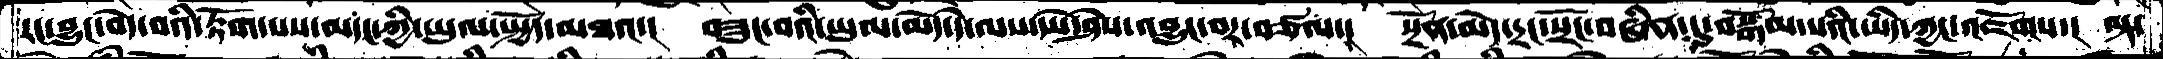རང་བྱུང་བདེ་བའི་རྟོག་པས་མདང་ཀྱི་ཡུལ་སྤྱོད་མཐའ་།  བཟུང་བའི་ཡུལ་མེད་དེ་ལས་ཡེ་ཤེས་འབྱུང་བར་བཙལ་།  སྔོན་མེད་དྲང་སྲོང་བཞིན་དུ་བསྒོམ་པའི་ཡིད་ཀྱང་འཇོགས་།  ལྟ་
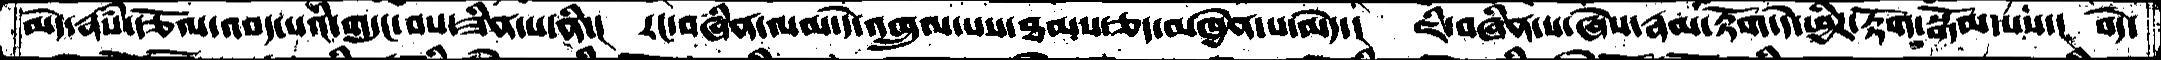མེད་རྣཾས་རྩོལ་འབད་པའི་གདུང་བས་ཟིན་པ་ནི་།  རང་བཞིན་ལམ་དེ་འཁྲུལ་པས་ཐམས་ཅད་མཁྱེན་པ་མེད་།  ཇི་བཞིན་ས་ཞེས་རྣམ་རྟོག་དེ་ཕྱིར་རྟོག་སྒོམ་པས་།   བདེ་
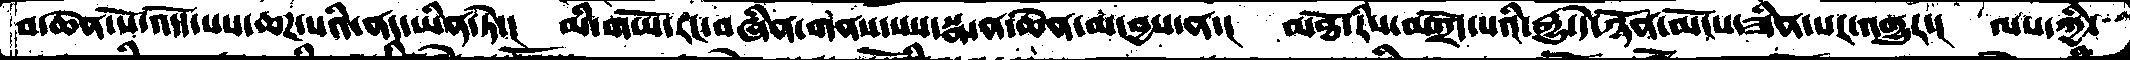བ་ཆེན་པོ་འདོད་པས་ཆཌ་པའི་ནད་ཡིན་ཏེ་།  མི་གཡོ་རང་བཞིན་གནས་པས་སྨན་ཆེན་མ་བྱས་ན་།  མཐོ་རིས་བགྲོད་པའི་རྒྱུ་དེ་ཉོན་མོངས་ཟིན་པར་འགྱུར་།  ལས་ཀྱི་
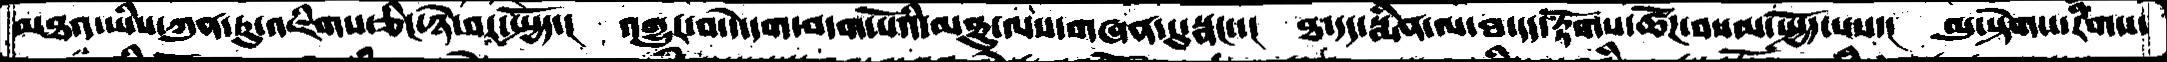མཐའ་ཡིས་ཀུན་ཏུ་འཇིགས་ཅིང་ཉེ་བར་སྤྱོད་།  འགྱུར་བ་དེ་དག་བདག་པོའི་མཐུ་ལས་གཞན་དུ་སྣང་་།  ཐ་དད་སྨིན་ལ་ཐ་དད་རྟོགས་ཚོཌ་བསམ་སྤྱོད་པས་།  མུ་སྟེགས་རིགས་
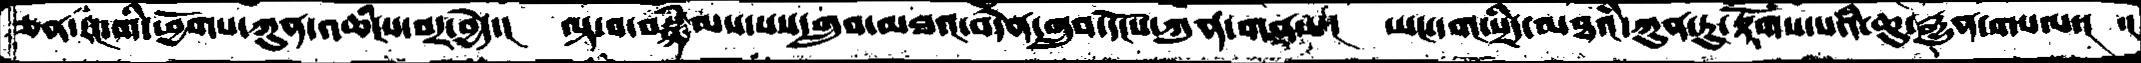ཅན་རང་གི་ཕྱོགས་ཀུན་འཆིངས་བར་བྱེད་།   ལྟ་བ་བསྙིམས་པས་གྲུབ་མཐའ་བདེན་གྲུབ་དངོས་ཀུན་གནས་།   ཡང་དག་སྲིད་མཐའི་ཀུན་ཏུ་རྟོགས་པའི་ཆུ་རྒྱུན་གསལ་།  ་།
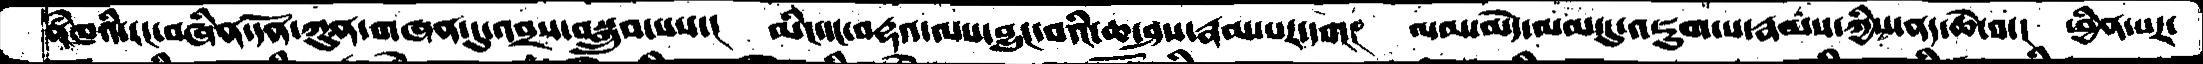ནཾཁའི་རང་བཞིན་དོན་ཀུན་གཞན་དུ་འབྲས་བསྒྲུབ་པས་།  མིང་དང་བརྡའ་ལས་བྱུང་བའི་ཆ་ཤས་རྣམ་པར་དག།  ལམ་མེད་ལམ་དུ་འཇུག་པ་རྣམས་ཀྱིས་ནད་ཆེ་བ་།  ཕྱིན་པར་
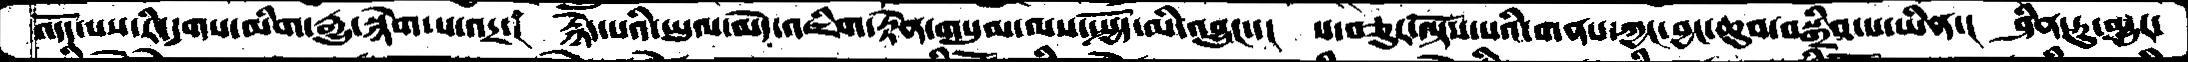འདོད་པས་རི་དྭགས་མིག་རྒྱུ་སྙེག་པ་འདྲ་།  རྙེད་པའི་ཡུལ་མེད་འཇིག་རྟེན་གསུམ་ལས་སྤྱོད་མི་འབྱུང་་།  ས་བཅུར་ལྟོས་པའི་གནས་ཀྱང་བྱང་ཆུབ་བསྒྲིབ་པ་ཡིན་།  ཤིན་ཏུ་མྱུར་
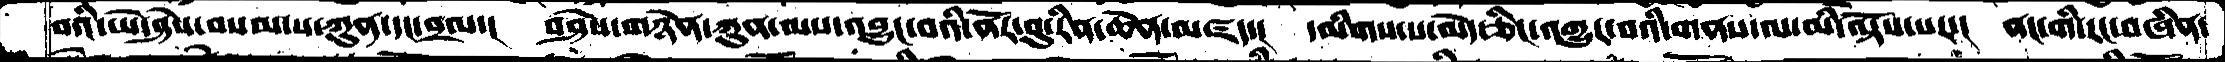བའི་ཡེ་ཤེས་བསམ་པ་ཀུན་དང་བྲལ་།  བཤེས་གཉེན་ཀུན་ལས་འབྱུང་བའི་ནོར་བུ་རིན་ཆེན་མཛད་།  དམིགས་པ་མེད་ཅིང་འགྱུར་བའི་གནས་ལ་མི་ལྟོས་པར་།  ནང་གི་རང་བཞིན་
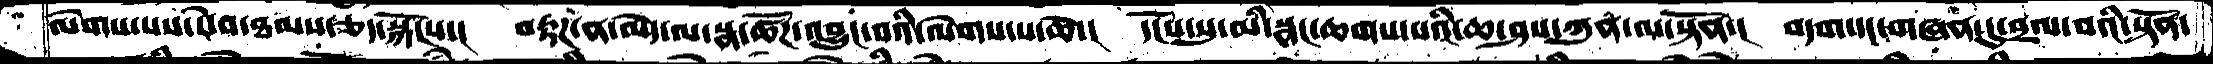ལེགས་པས་རེ་བ་ཐམས་ཅད་སྐོངས་།  བརྟཌ་ན་མེད་ལ་སྣ་ཚོཌ་འབྱུང་བའི་ལེགས་པ་ཆེ་།   དངོས་སུ་མི་སྣང་ཆགས་པའི་ཆ་ཤས་ཀུན་ལ་སྟོན་།  བདག་དང་གཞན་དུ་བྲལ་བའི་སྟོན་
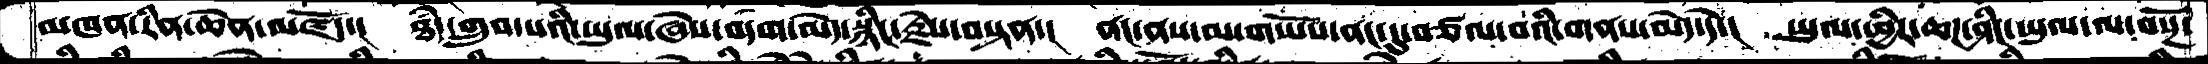མཁན་རིན་ཆེན་མཛོད་།  ཐཾད་གྲུབ་པའི་ཡུལ་ཞེས་བདག་མེད་སྙིང་རྗེས་བསྟན་།  ནང་ནས་མ་གཡོས་ནང་དུ་བཙལ་བའི་གནས་མེད་དེ་།  ཡུལ་ཕྱིར་ཆཌ་ཤིང་ཡུལ་ལ་བསྔོ་
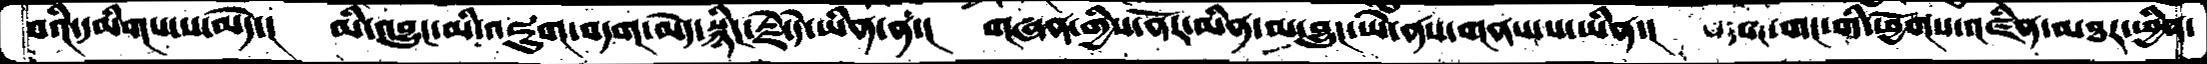བའི་དམིགས་པ་མེད་།  མི་འབྱུང་མི་འཇུག་བདག་མེད་སྙིང་རྗེ་དེ་ཡིན་ན་།  གཞན་གྱིས་ནོར་མིན་མ་བྱུང་ཡེ་ནས་གནས་པ་ཡིན་།  བདག་གང་གི་ཕྱོགས་འཛིན་མཐར་ཕྱིན་
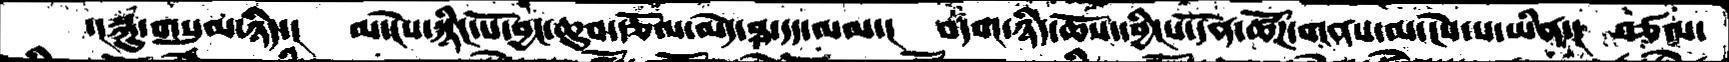་།སྐུ་གསུམ་ཉིད་།   མ་ངེས་སྙིང་པོ་བྱང་ཆུབ་རྩོལ་མེད་ཐ་དད་ལམ་།  བདག་ཉིད་ཆོས་དབྱིངས་དོན་ཚོཌ་གནས་ལ་ངེས་པ་ཡིན་།  བཙལ་
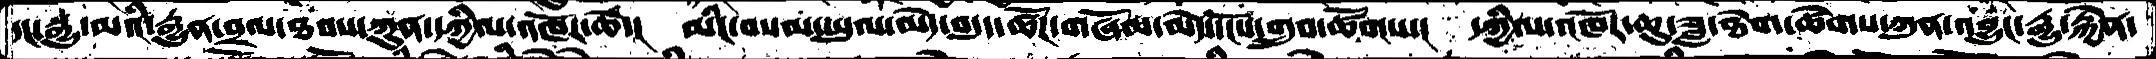དང་སྒྱུ་མའི་རྒྱུན་བྲལ་ཐབས་ཀུན་དཀྱིལ་འཁོར་ཆེ་།   མིང་བསམ་ཡུལ་མེད་བདུད་ཚོཌ་གཞོམ་མེད་དངོས་གྲུབ་ཚོགས་།  དཀྱིལ་འཁོར་ཆུ་ཟླ་ཐེག་ཚེགས་ཀུན་འབྱུང་རྒྱུ་རྐྱེན་
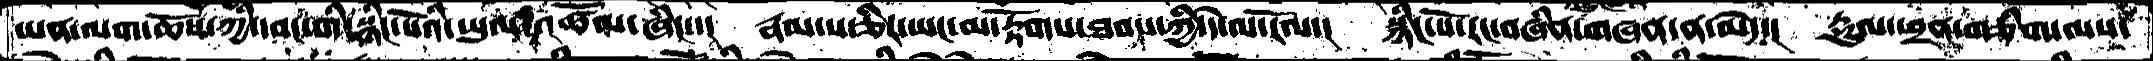ཡན་ལག་ཆོས་ཀྱི་དབང་གི་སྙིང་པོའི་ཡུལ་འཚོལ་ཞིང་་།  རྣམ་པ་ཅིར་ཡང་མ་རྟོགས་ཐབས་ཀྱི་དེ་ལ་རོལ་།  སྙིང་པོ་རང་བཞིན་གཞན་ན་མེད་།  རྡུལ་ཕྲན་གཅིག་ལས་
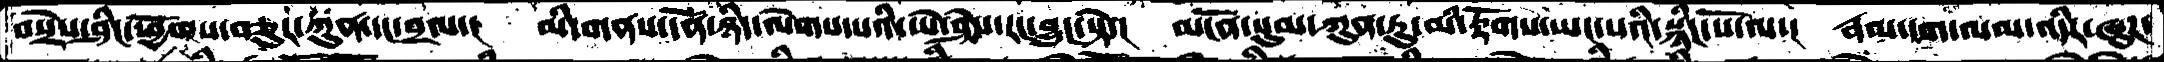བསྲེས་ཤིང་ཕྱོགས་བཅུར་ཀུན་དང་བྲལ་།  མི་གནས་དོན་ཉིད་ལེགས་པའི་ཡེ་ཤེས་རང་བྱུང་སྟེ་།  མངོན་སུམ་ཀུན་ཏུ་མི་རྟོགས་ཡང་པའི་སྙིང་པོ་ལ་།  རྣམ་དག་ལམ་འདིར་ཞུཌ་
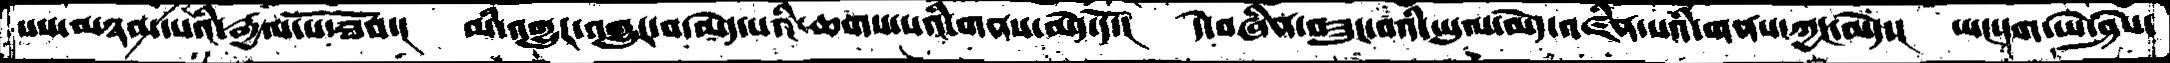པས་མཉམ་པའི་རྒྱལ་པོ་ཐོབ་།   མི་འགྱུར་འགྱུར་བ་མེད་པའི་ཆགས་པའི་གནས་མེད་དོ་།  དེ་བཞིན་བཟུང་བའི་ཡུལ་མེད་འཛིན་པའི་གནས་ཀྱང་མེད་།  ཡང་དག་ཡེ་ཤེས་
